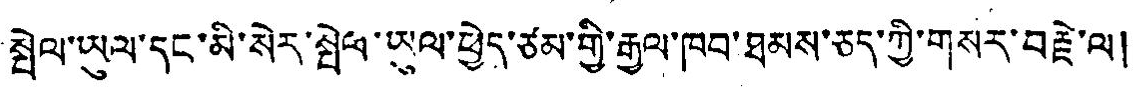སྤེལ་ཡུལ་དང་མི་སེར་སྤེལ་ཡུལ་ཕྱེད་ཙམ་གྱི་རྒྱལ་ཁབ་ཐམས་ཅད་ཀྱི་གསར་བརྗེ་ལ།
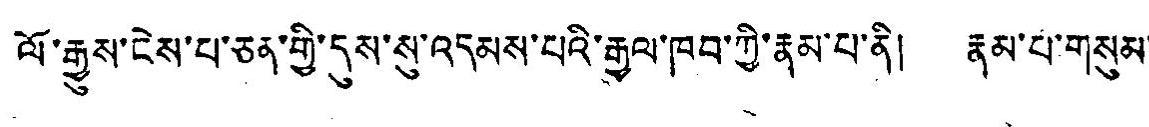ལོ་རྒྱུས་ངེས་པ་ཅན་གྱི་དུས་སུ་འདམས་པའི་རྒྱལ་ཁབ་ཀྱི་རྣམ་པ་ནི། རྣམ་པ་གསུམ་
